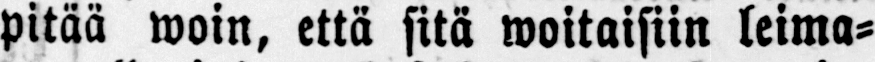pitää woin, että sitä woitaisiin leima-
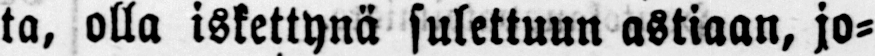ta, olla iskettynä sulettuun astiaan, jo-
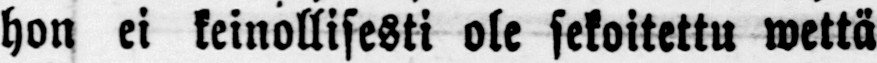hon ei keinollisesti ole sekoitettu wettä
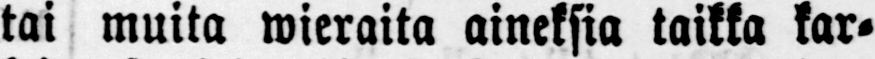tai muita wieraita aineksia taikka kar-
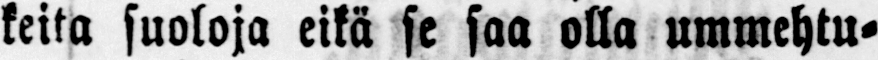keita suoloja eikä se saa olla ummehtu-
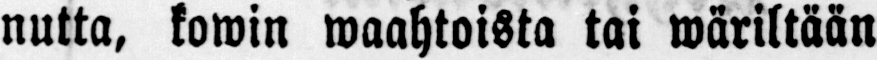nutta, kowin waahtoista tai wäriltään
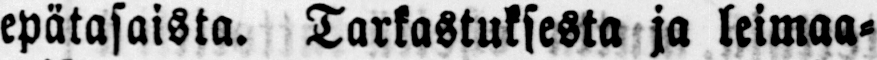epätasaista. Tarkastuksesta ja leimaa-
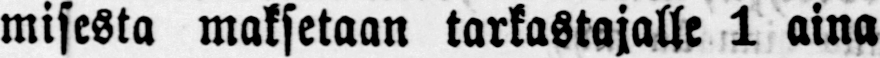misesta maksetaan tarkastajalle 1 aina
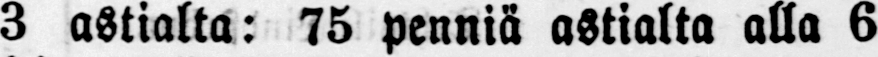3 astialta: 75 penniä astialta alla 6
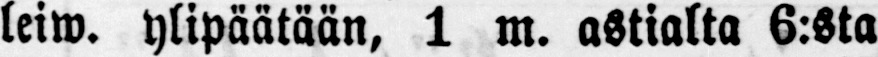leiw. ylipäätään, 1 m. astialta 6:sta
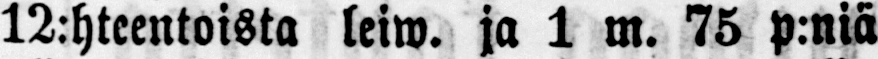12:hteentoista leiw. ja 1 m. 75 p:niä
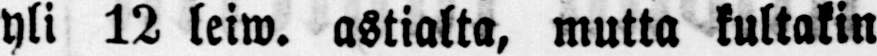yli 12 leiw. astialta, mutta kultakin
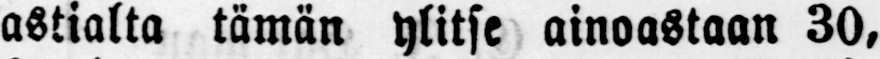astialta tämän ylitse ainoastaan 30,
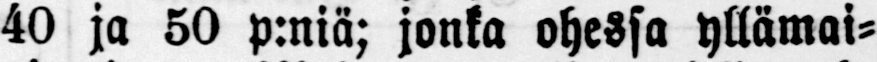40 ja 50 p:niä; jonka ohessa yllämai-
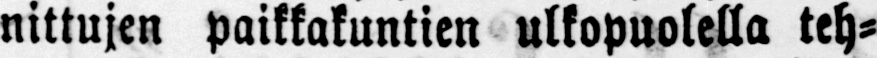nittujen paikkakuntien ulkopuolella teh-
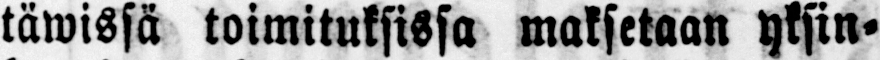täwissä toimituksissa maksetaan yksin-
